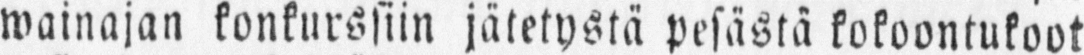wainajan konkurssiin jätetystä pesästä kokoontukoot
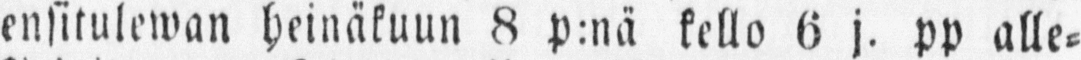ensitulewan heinäkuun 8 p:nä kello 6 j. pp alle-
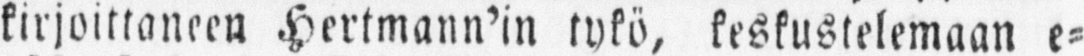kirjoittaneen Hertmann'in tykö, keskustelemaan e-
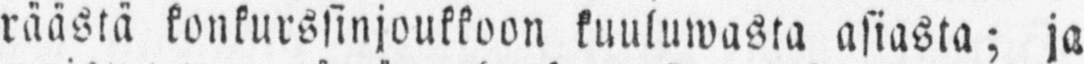räästä konkurssinjoukkoon kuuluwasta asiasta; ja
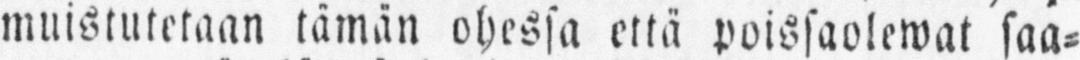muistutetaan tämän ohessa että poissaolewat saa-
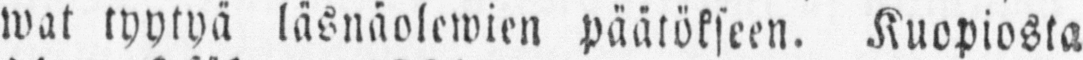wat tyytyä läsnäolewien päätökseen. Kuopiosta
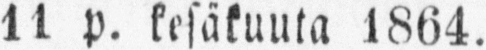11 p. kesäkuuta 1864.
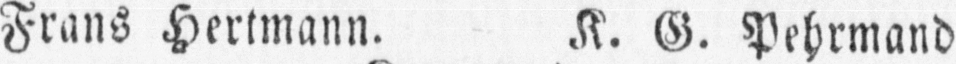Frans Hertmann. K. G. Pehrmand.
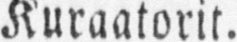Kuraatorit.
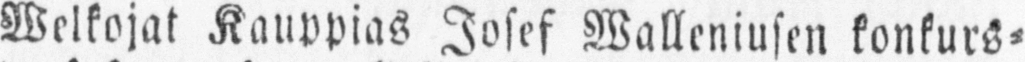Welkojat Kauppias Josef Walleniusen konkurs-
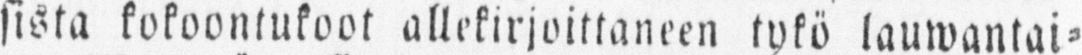sista kokoontukoot allekirjoittaneen tykö lauwantai-
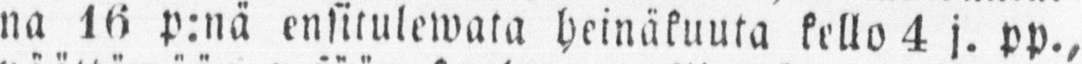na 16 p:nä ensitulewata heinäkuuta kello 4 j. pp.,
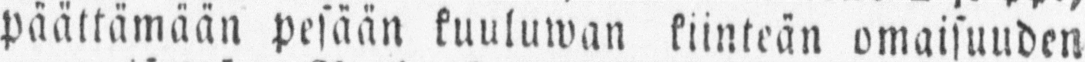päättämään pesään kuuluwan kiinteän omaisuuden
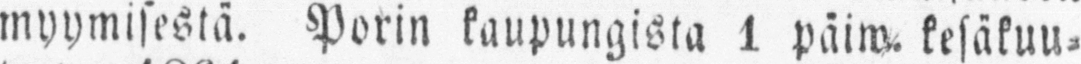myymisestä. Porin kaupungista 1 päiw. kesäkuu-
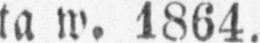ta w. 1864.
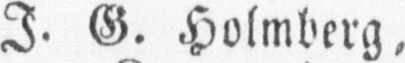I. G. Holmberg,
